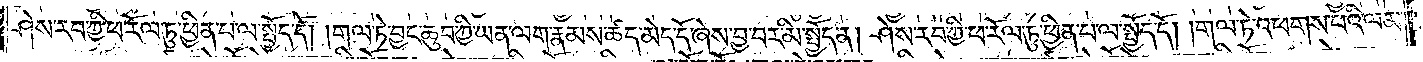ཤེས་རབ་ཀྱི་ཕ་རོལ་ཏུ་ཕྱིན་པ་ལ་སྤྱོད་དོ། །གལ་ཏེ་བྱང་ཆུབ་ཀྱི་ཡན་ལག་རྣམས་ཚད་མེད་དོ་ཞེས་བྱ་བར་མི་སྤྱོད་ན། ཤེས་རབ་ཀྱི་ཕ་རོལ་ཏུ་ཕྱིན་པ་ལ་སྤྱོད་དོ། །གལ་ཏེ་འཕགས་པའི་ལམ་
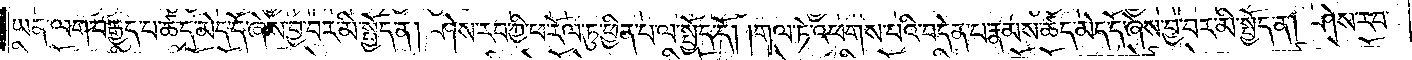ཡན་ལག་བརྒྱད་པ་ཚད་མེད་དོ་ཞེས་བྱ་བར་མི་སྤྱོད་ན། ཤེས་རབ་ཀྱི་ཕ་རོལ་ཏུ་ཕྱིན་པ་ལ་སྤྱོད་དོ། །གལ་ཏེ་འཕགས་པའི་བདེན་པ་རྣམས་ཚད་མེད་དོ་ཞེས་བྱ་བར་མི་སྤྱོད་ན། ཤེས་རབ་
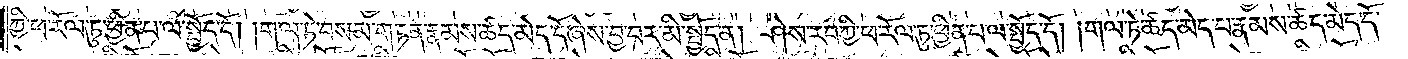ཀྱི་ཕ་རོལ་ཏུ་ཕྱིན་པ་ལ་སྤྱོད་དོ། །གལ་ཏེ་བསམ་གཏན་རྣམས་ཚད་མེད་དོ་ཞེས་བྱ་བར་མི་སྤྱོད་ན། ཤེས་རབ་ཀྱི་ཕ་རོལ་ཏུ་ཕྱིན་པ་ལ་སྤྱོད་དོ། །གལ་ཏེ་ཚད་མེད་པ་རྣམས་ཚད་མེད་དོ་
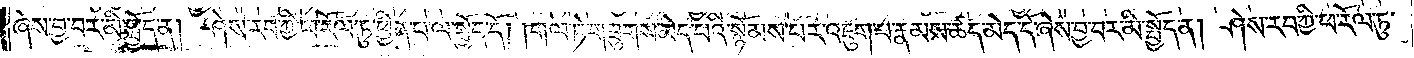ཞེས་བྱ་བར་མི་སྤྱོད་ན། ཤེས་རབ་ཀྱི་ཕ་རོལ་ཏུ་ཕྱིན་པ་ལ་སྤྱོད་དོ། །གལ་ཏེ་གཟུགས་མེད་པའི་སྙོམས་པར་འཇུག་པ་རྣམས་ཚད་མེད་དོ་ཞེས་བྱ་བར་མི་སྤྱོད་ན། ཤེས་རབ་ཀྱི་ཕ་རོལ་ཏུ་
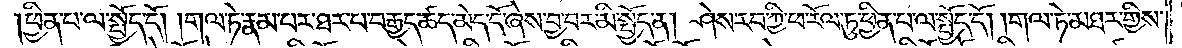ཕྱིན་པ་ལ་སྤྱོད་དོ། །གལ་ཏེ་རྣམ་པར་ཐར་པ་བརྒྱད་ཚད་མེད་དོ་ཞེས་བྱ་བར་མི་སྤྱོད་ན། ཤེས་རབ་ཀྱི་ཕ་རོལ་ཏུ་ཕྱིན་པ་ལ་སྤྱོད་དོ། །གལ་ཏེ་མཐར་གྱིས་
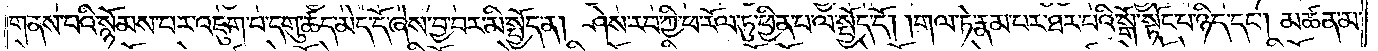གནས་པའི་སྙོམས་པར་འཇུག་པ་དགུ་ཚད་མེད་དོ་ཞེས་བྱ་བར་མི་སྤྱོད་ན། ཤེས་རབ་ཀྱི་ཕ་རོལ་ཏུ་ཕྱིན་པ་ལ་སྤྱོད་དོ། །གལ་ཏེ་རྣམ་པར་ཐར་པའི་སྒོ་སྟོང་པ་ཉིད་དང༌། མཚན་མ་
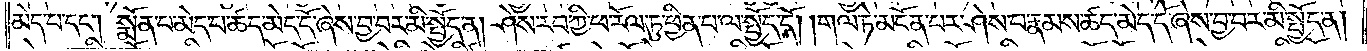མེད་པ་དང༌། སྨོན་པ་མེད་པ་ཚད་མེད་དོ་ཞེས་བྱ་བར་མི་སྤྱོད་ན། ཤེས་རབ་ཀྱི་ཕ་རོལ་ཏུ་ཕྱིན་པ་ལ་སྤྱོད་དོ། །གལ་ཏེ་མངོན་པར་ཤེས་པ་རྣམས་ཚད་མེད་དོ་ཞེས་བྱ་བར་མི་སྤྱོད་ན།
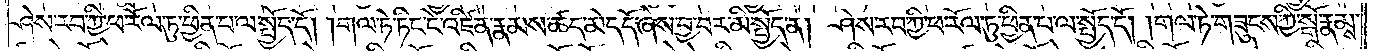ཤེས་རབ་ཀྱི་ཕ་རོལ་ཏུ་ཕྱིན་པ་ལ་སྤྱོད་དོ། །གལ་ཏེ་ཏིང་ངེ་འཛིན་རྣམས་ཚད་མེད་དོ་ཞེས་བྱ་བར་མི་སྤྱོད་ན། ཤེས་རབ་ཀྱི་ཕ་རོལ་ཏུ་ཕྱིན་པ་ལ་སྤྱོད་དོ། །གལ་ཏེ་གཟུངས་ཀྱི་སྒོ་རྣམས་
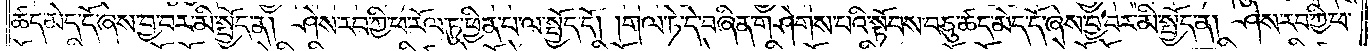ཚད་མེད་དོ་ཞེས་བྱ་བར་མི་སྤྱོད་ན། ཤེས་རབ་ཀྱི་ཕ་རོལ་ཏུ་ཕྱིན་པ་ལ་སྤྱོད་དོ། །གལ་ཏེ་དེ་བཞིན་གཤེགས་པའི་སྟོབས་བཅུ་ཚད་མེད་དོ་ཞེས་བྱ་བར་མི་སྤྱོད་ན། ཤེས་རབ་ཀྱི་ཕ་
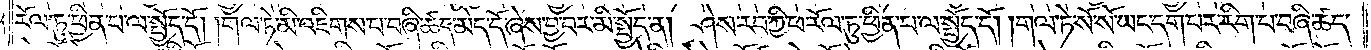རོལ་ཏུ་ཕྱིན་པ་ལ་སྤྱོད་དོ། །གལ་ཏེ་མི་འཇིགས་པ་བཞི་ཚད་མེད་དོ་ཞེས་བྱ་བར་མི་སྤྱོད་ན། ཤེས་རབ་ཀྱི་ཕ་རོལ་ཏུ་ཕྱིན་པ་ལ་སྤྱོད་དོ། །གལ་ཏེ་སོ་སོ་ཡང་དག་པར་རིག་པ་བཞི་ཚད་
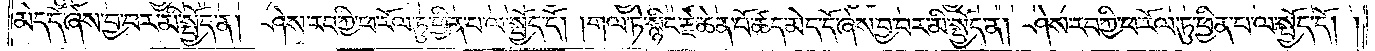མེད་དོ་ཞེས་བྱ་བར་མི་སྤྱོད་ན། ཤེས་རབ་ཀྱི་ཕ་རོལ་ཏུ་ཕྱིན་པ་ལ་སྤྱོད་དོ། །གལ་ཏེ་སྙིང་རྗེ་ཆེན་པོ་ཚད་མེད་དོ་ཞེས་བྱ་བར་མི་སྤྱོད་ན། ཤེས་རབ་ཀྱི་ཕ་རོལ་ཏུ་ཕྱིན་པ་ལ་སྤྱོད་དོ། །
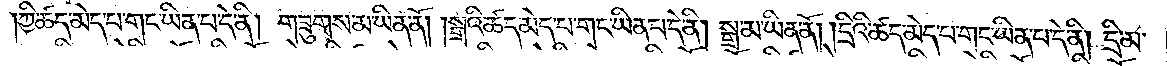ཀྱི་ཚད་མེད་པ་གང་ཡིན་པ་དེ་ནི། གཟུགས་མ་ཡིན་ནོ། །སྒྲའི་ཚད་མེད་པ་གང་ཡིན་པ་དེ་ནི། སྒྲ་མ་ཡིན་ནོ། །དྲིའི་ཚད་མེད་པ་གང་ཡིན་པ་དེ་ནི། དྲི་མ་
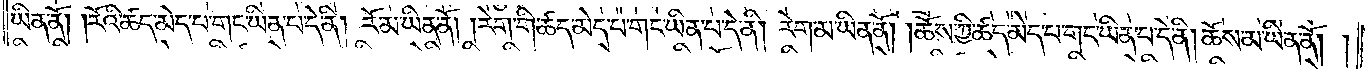ཡིན་ནོ། །རོའི་ཚད་མེད་པ་གང་ཡིན་པ་དེ་ནི། རོ་མ་ཡིན་ནོ། །རེག་གི་ཚད་མེད་པ་གང་ཡིན་པ་དེ་ནི། རེག་མ་ཡིན་ནོ། །ཆོས་ཀྱི་ཚད་མེད་པ་གང་ཡིན་པ་དེ་ནི། ཆོས་མ་ཡིན་ནོ། །
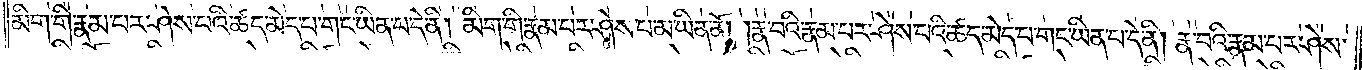མིག་གི་རྣམ་པར་ཤེས་པའི་ཚད་མེད་པ་གང་ཡིན་པ་དེ་ནི། མིག་གི་རྣམ་པར་ཤེས་པ་མ་ཡིན་ནོ། །རྣ་བའི་རྣམ་པར་ཤེས་པའི་ཚད་མེད་པ་གང་ཡིན་པ་དེ་ནི། རྣ་བའི་རྣམ་པར་ཤེས་
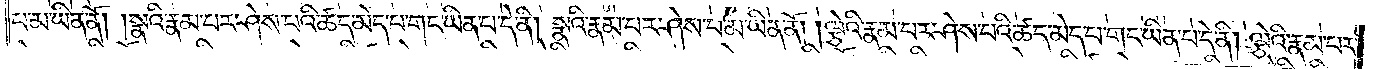པ་མ་ཡིན་ནོ། །སྣའི་རྣམ་པར་ཤེས་པའི་ཚད་མེད་པ་གང་ཡིན་པ་དེ་ནི། སྣའི་རྣམ་པར་ཤེས་པ་མ་ཡིན་ནོ། །ལྕེའི་རྣམ་པར་ཤེས་པའི་ཚད་མེད་པ་གང་ཡིན་པ་དེ་ནི། ལྕེའི་རྣམ་པར་
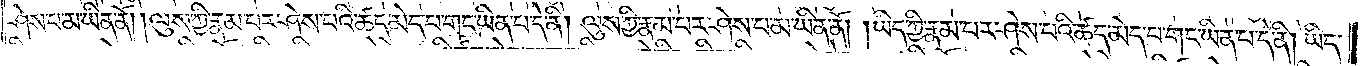ཤེས་པ་མ་ཡིན་ནོ། །ལུས་ཀྱི་རྣམ་པར་ཤེས་པའི་ཚད་མེད་པ་གང་ཡིན་པ་དེ་ནི། ལུས་ཀྱི་རྣམ་པར་ཤེས་པ་མ་ཡིན་ནོ། །ཡིད་ཀྱི་རྣམ་པར་ཤེས་པའི་ཚད་མེད་པ་གང་ཡིན་པ་དེ་ནི། ཡིད་
